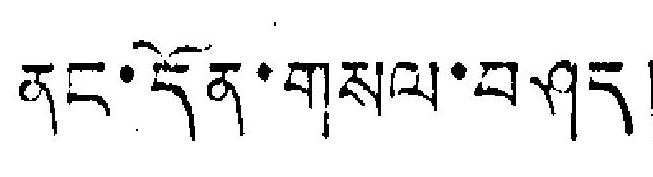ནང་དོན་གསལ་བཤད།
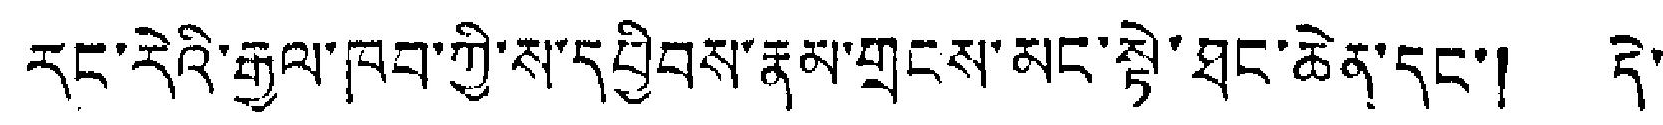རང་རེའི་རྒྱལ་ཁབ་ཀྱི་ས་དབྱིབས་རྣམ་གྲངས་མང་སྟེ་ཐང་ཆེན་དང་། དེ་
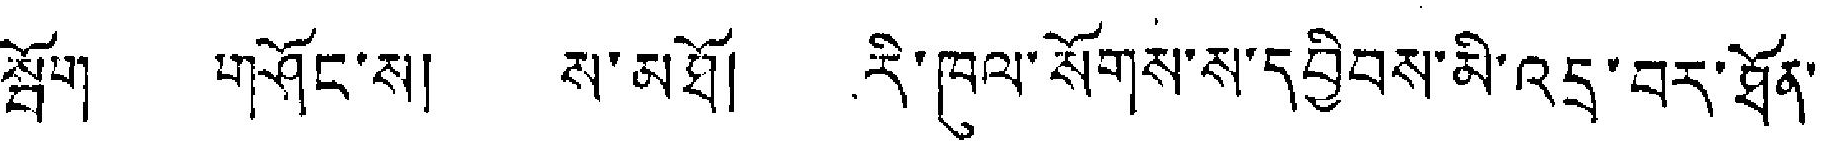སྦོག གཤོང་ས། ས་མཐོ། རི་ཁུལ་སོགས་ས་དབྱིབས་མི་འདྲ་བར་ཐོན་
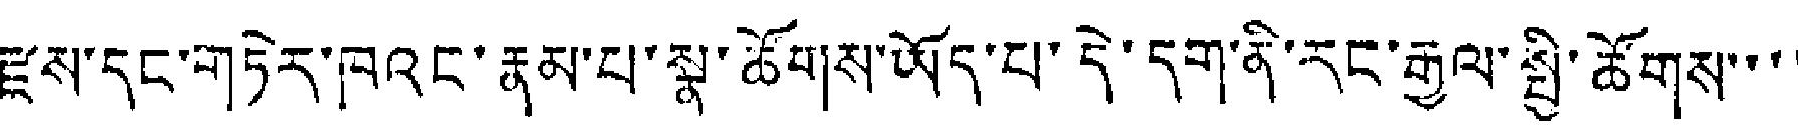རྫས་དང་གཏེར་ཁའང་རྣམ་པ་སྣ་ཚོགས་ཡོད་པ་དེ་དག་ནི་རང་རྒྱལ་སྤྱི་ཚོགས་་་
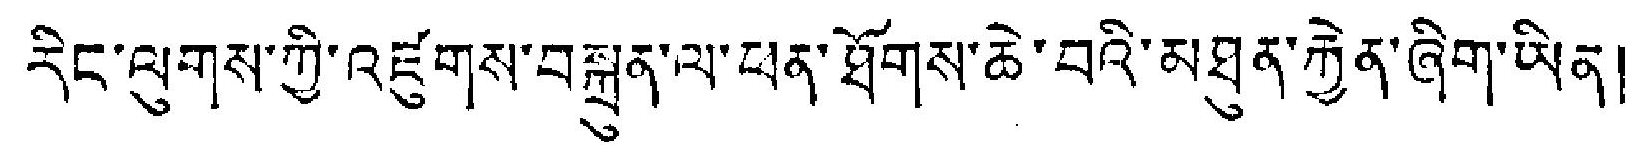རིང་ལུགས་ཀྱི་འཛུགས་བསྐྲུན་ལ་ཕན་ཐོགས་ཆེ་བའི་མཐུན་རྐྱེན་ཞིག་ཡིན།
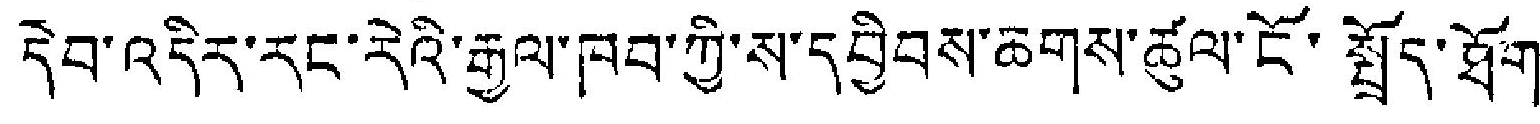དེབ་འདིར་རང་རེའི་རྒྱལ་ཁབ་ཀྱི་ས་དབྱིབས་ཆགས་ཚུལ་ངོ་སྤྲོད་ཐོག
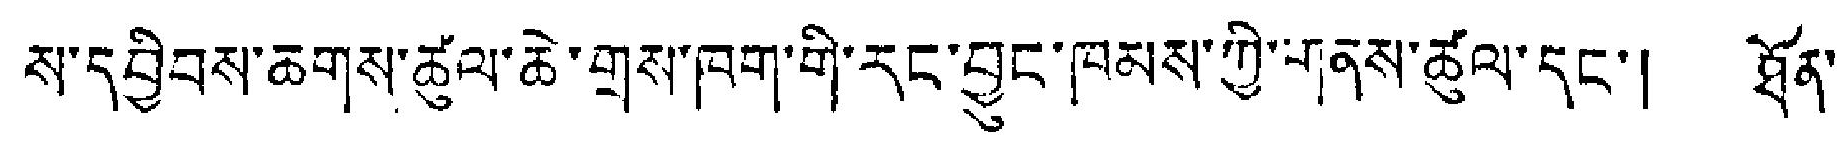ས་དབྱིབས་ཆགས་ཚུལ་ཆེ་གྲས་ཁག་གི་རང་བྱུང་ཁམས་ཀྱི་གནས་ཚུལ་དང་། ཐོན་
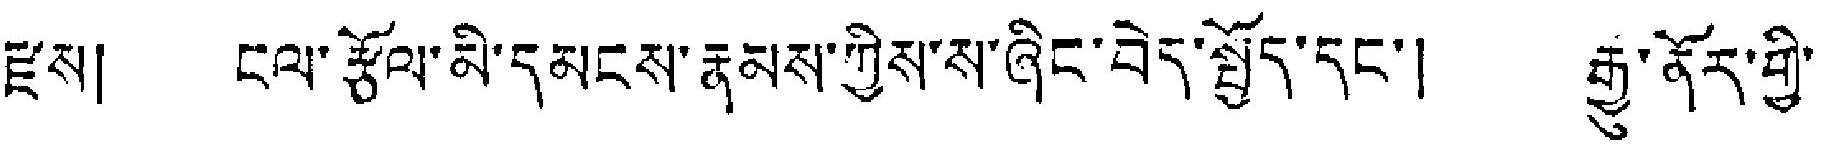རྫས། ངལ་རྩོལ་མི་དམངས་རྣམས་ཀྱིས་ས་ཞིང་བྱེད་སྤྱོད་དང་། རྒྱུ་ནོར་གྱི་
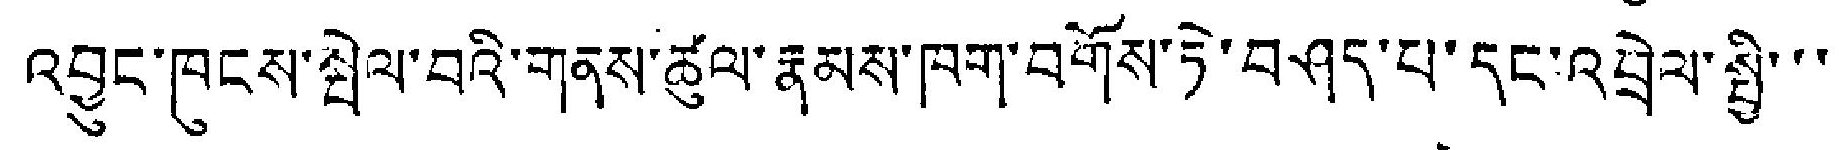འབྱུང་ཁུངས་སྤེལ་བའི་གནས་ཚུལ་རྣམས་ཁག་བགོས་ཏེ་བཤད་པ་དང་འབྲེལ་སྤྱི་་་
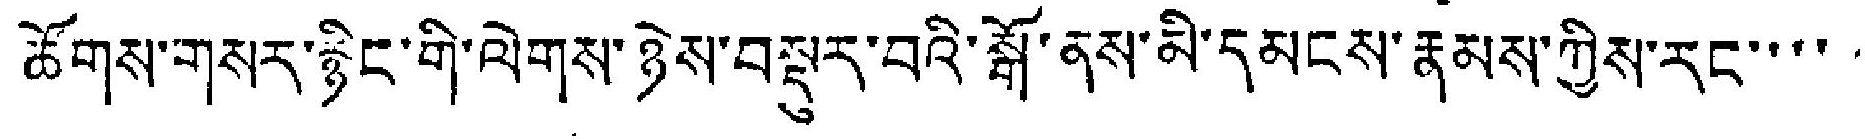ཚོགས་གསར་རྙིང་གི་ལེགས་ཉེས་བསྡུར་བའི་སྒོ་ནས་མི་དམངས་རྣམས་ཀྱིས་རང་་་་
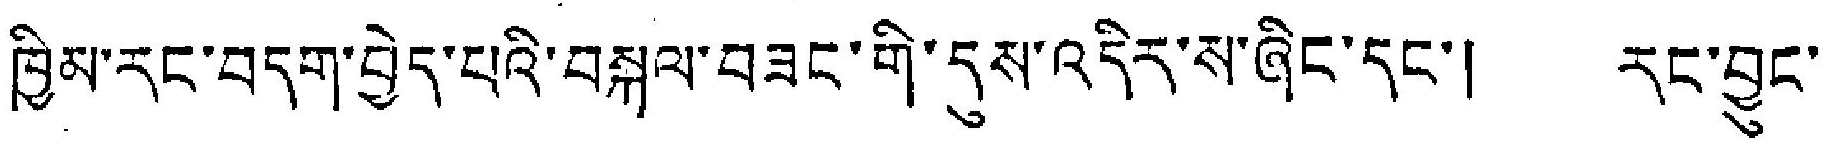ཁྱིམ་རང་བདག་བྱེད་པའི་བསྐལ་བཟང་གི་དུས་འདིར་ས་ཞིང་དང་། རང་བྱུང་
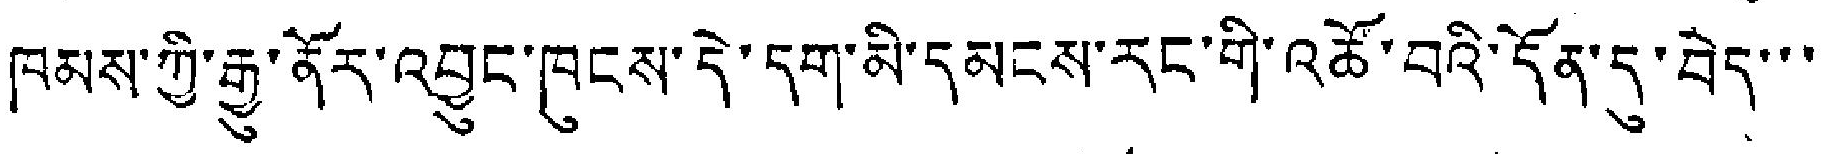ཁམས་ཀྱི་རྒྱུ་ནོར་འབྱུང་ཁུངས་དེ་དག་མི་དམངས་རང་གི་འཚོ་བའི་དོན་དུ་བྱེད་་་
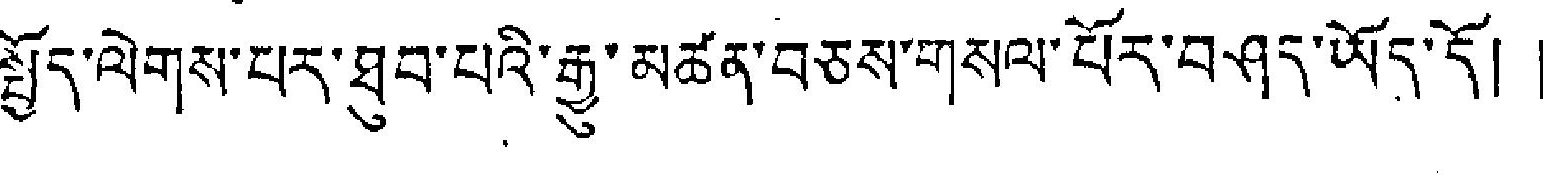སྤྱོད་ལེགས་པར་ཐུབ་པའི་རྒྱུ་མཚན་བཅས་གསལ་པོར་བཤད་ཡོད་དོ། །
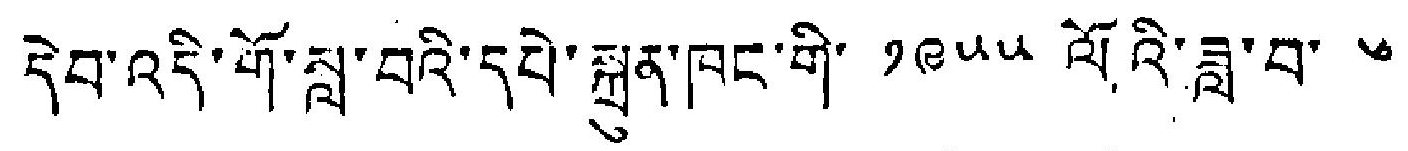དེབ་འདི་གོ་སླ་བའི་དཔེ་སྐྲུན་ཁང་གི་ ༡༩༥༥ ལོའི་ཟླ་བ་ ༦
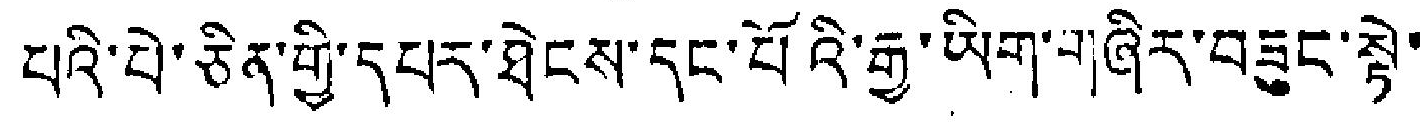པའི་པེ་ཅིན་གྱི་དཔར་ཐེངས་དང་པོའི་རྒྱ་ཡིག་གཞིར་བཟུང་སྟེ་
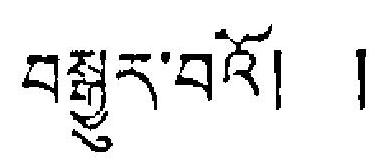བསྒྱུར་བའོ། །
